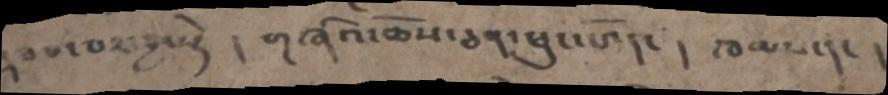རྡབས་བར་བྱ་སྟེ ། གཞིའ་ཆོས་ཅན་ཕུང་པོ་དང། །ཁམས་དང །
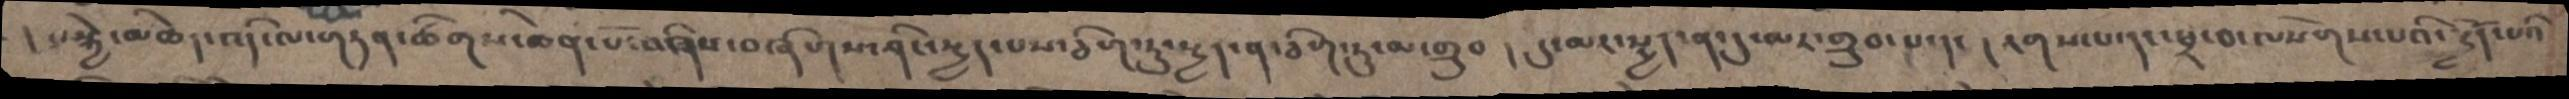། སྐྱེ་མཆེད་འདི་ལ་གཏན་ཚིགས་ཆེན་པོ་བཞིས་བཞིས།ས་ཤིང་སྤྱད་པས་ཅིག་ཏུ་སྤྱད་ན་ཅིག་ཏུ་མ་གྲུབ། དུ་མར་སྤྱད་ན་དུ་མར་གྲུབ་པ་དང །རགས་པ་དང་ཕྲ་བ་ལསོགས་པའི་སྤྱོད་པའི་
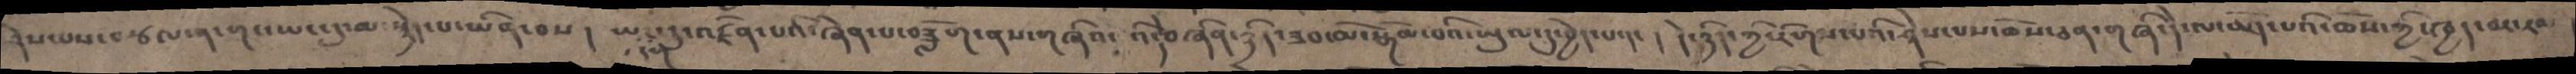ཤེས་པས་བཙལ་ན་གང་ཡང་དུ་མ་སྙེད་པ་ཡིན་བས། ཡང་དག་དུ་འཛིན་པའི་ཞེན་པ་བཟློག་ནས་གཞིའ་འིདེབཞིན་ཉིད་ཟབ་མོ་སྒོམ་པའི་ཡུལ་དུ་བྱེད་པ་དང། དེ་ཉིད་ཀྱི་རིགས་པའི་ཤེས་པས་ཆོས་ཅན་གཞི་དེ་ལ་མོད་པའི་ཆོས་ཀྱི་ཁྱད་བར་རབ
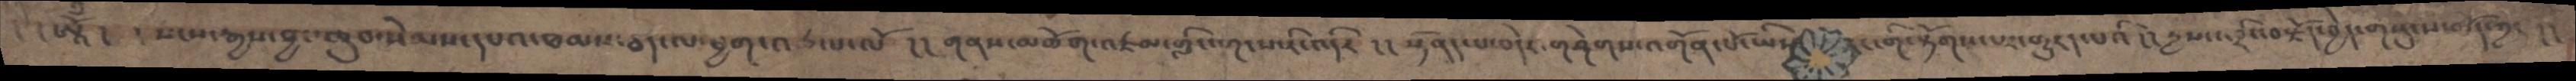། །ཨཱོྃ། །སངས་རྒྱས་བྱང་ཆུབ་སེམས་དཔའ་ཐམས་ཅད་ལ་ཕྱག་འཚལ་ལོ །། གནས་མཆོག་འཛམ་གླིང་གངས་རི་འདིར །། སྟོནད་པ་བདེར་གཤེགས་འགོན་པོ་ཡིས རང་གི་རྟོགས་པར་གྱུརད་པའི།། དྱས་འབྲིང་བརྗོད་བྱེད་གསུངས་མོད་ཀྱང །།
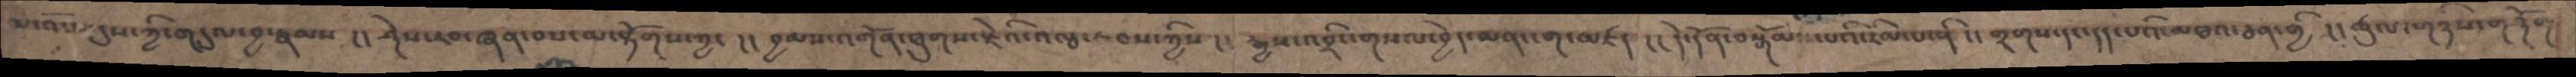མ་འོང་དུས་ཀྱི་གདུལ་བྱ་རྣམས །། ཤེས་རབ་ཞན་པས་མ་རྟོགས་ཀྱང །། བྱམས་འགོན་ཐུགས་རྗེའི་འལྦ་རླབས་ཀྱིས །། རྒྱས་འབྲིང་གསལ་བྱེད་མན་ངག་མཛད །། དེ་དོན་བསྒོམ་པའི་རིམ་པ་ནི །། གྲགས་དང་དད་པའི་མཐའ་ཅན་གྱི །། ཚུལ་གཉིས་གཉོག
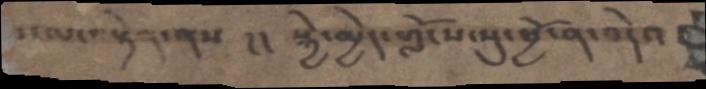་ངལ་བསྟེན་ནས །། སྐྱེ་མྱེད་གློངས་སུ་ཕྱོ་ན་བདེའ
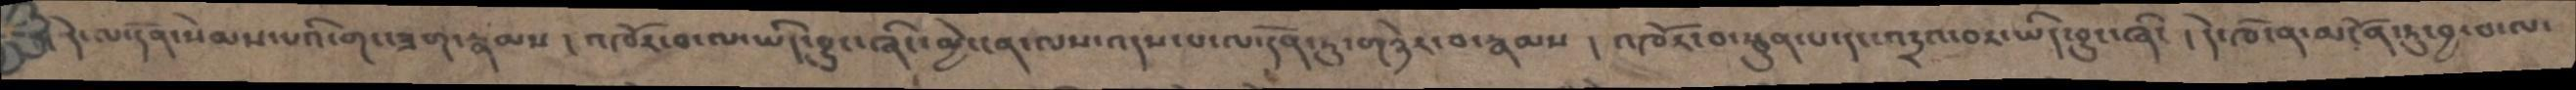དེ་ལ་དོན་སེམས་པའི་གང་ཟག་རྣམས ། འཁོར་བ་ལ་ཡིད་བྱུང་ཞིང་མྱེ་ངན་ལས་འདས་པ་ལ་དོན་ཏུ་གཉེར་བ་རྣམས ། འཁོར་བ་སྦུན་པ་དང་འདྲའ་བར་ཡིད་བྱུང་ཞིང ། དེ་ཁོ་ན་མངོན་ཏུ་བྱ་བ་ལ་
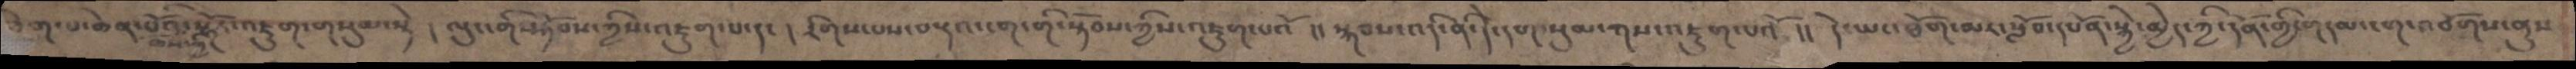ཐེག་པ་ཆེན་པོའི་ཆོས་ཀྱི་སྒོར་འཇུག་གསུམ་སྟེ ། ལུང་གི་སྟོབས་ཀྱིས་འཇུག་པ་དང ། རིགས་པས་བརྡའ་ངག་གི་སྟོབས་ཀྱིས་འཇུག་པའོ །། སྐབས་འདི་ནི་དེ་དག་སུམ་ཀས་འཇུག་པའོ །།དེ་ཡང་ཐོག་མར་སློབ་དཔོན་སྐྱེ་མྱེད་ཀྱི་དོན་གྱི་གདམ་ངག་འབོགས་ནུས
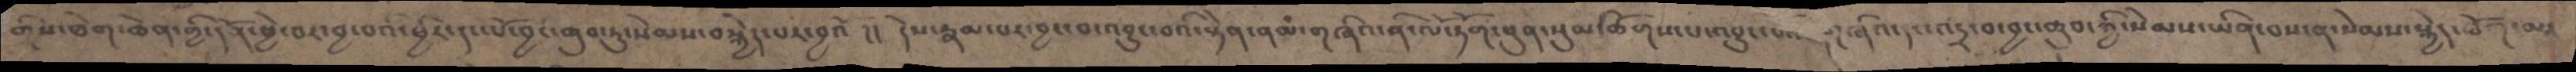གིས་ཐེག་ཆེན་གྱི་དོན་ཕྱེ་བར་བྱ་བའི་ཕྱིར་དང་པོ་བྱང་ཆུབ་ཏུ་སེམས་བསྐྱེད་པར་བྱའོ །། དེས་རྣམ་པར་བྱང་བ་འབྱུང་བའི་རྟེན་ནམ་གཞིའ་ནི་ལོ་ཏོག་ཕུན་སུམ་ཚོགས་པ་འབྱུང་བའི་་གཞིའ་དང་འདྲ་བ་བྱང་ཆུབ་ཀྱི་སེམས་ཡིན་པས་ན་སེམས་སྐྱེད་ཐོག་མར་
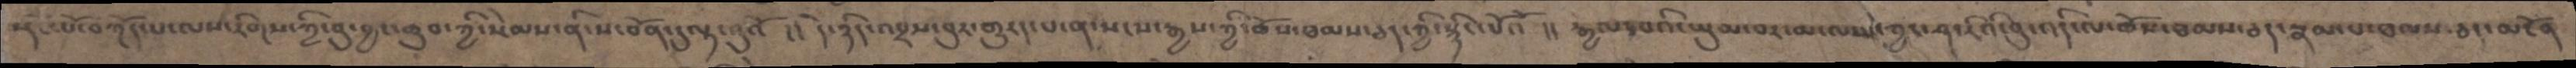སྡོང་པོ་བཀོད་པ་ལས་རིགས་ཀྱི་བུ་བྱང་ཆུབ་ཀྱི་སེམས་ནི་ས་བོན་དུ་ལྟ་བུའོ །། དེ་ཉིད་འབྲས་བུར་གྱུརད་པ་ན་སངས་རྒྱས་ཀྱི་ཆོས་ཐམས་ཅད་ཀྱི་སྙིང་པོའོ །། རྒྱལ་བའི་ཡུམ་བར་མ་ལས་ཀྱང་ཤ་རིའི་བུ་འདི་ལ་ཆོས་ཐམས་ཅད་རྣམ་པ་ཐམས་ཅད་མངོན
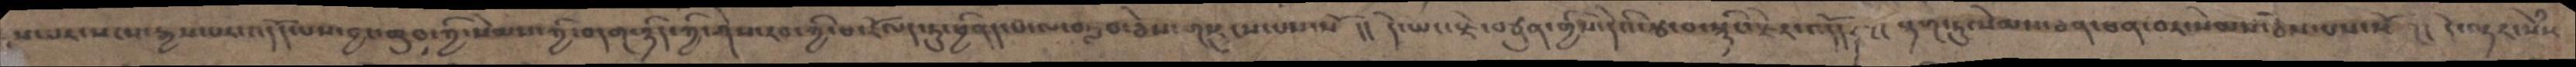ས་པར་སངས་རྒྱས་པར་འདོད་པས་བྱང་ཆུབ་ཀྱི་སེམས་ཀྱི་བདག་ཉིད་ཀྱི་ཤེས་རབ་ཀྱི་ཕ་རོལད་ཏུ་ཕྱིནད་པ་ལ་བརླབ་ཅེས་གསུངས་པས་སོ །། དེ་ཡང་རྗེ་བཙུན་གྱིས་དེའི་རྩ་བ་སྙིང་རྗེར་འདོད། ངང རྟག་ཏུ་སེམས་ཅན་ཕན་བར་སེམས་ཅེས་པས་སོ །། དེ་ལྟར་སེཾས
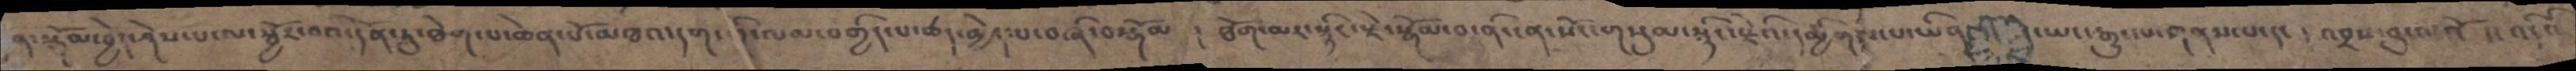ན་སྒོམ་བྱེད་ཤེས་པ་ལ་སྦྱོར་བའི་དོན་ཏུ་ཐེག་པ་ཆེན་པོ་མཐའ་དག་གི་ལམ་བགྱིད་པ་ཚད་མྱེད་པ་བཞི་བསྒོམ ། ཐོག་མར་སྙིང་རྗེ་སྒོམ་བ་ནི་ངན་སོང་གསུམ་སྙིང་རྗེའི་དམྱིགས་པ་ཡིན་ཡང་རྒྱུད་གནས་པ་དང ། འབྲས་བུ་ལའོ །། འདིའི་
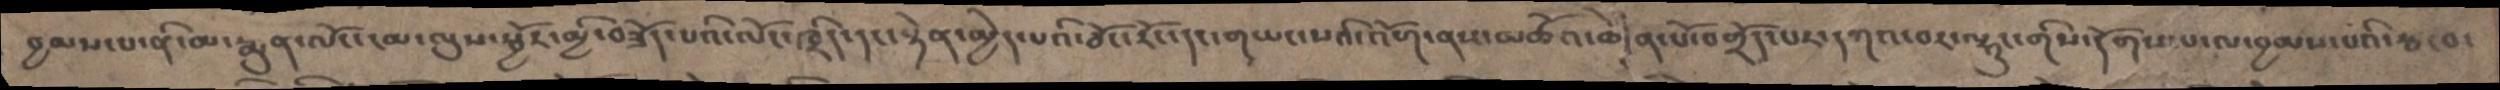བྱམས་པ་ནི་མ་སྨུན་ལོང་ངམ་ལུས་སྦྱོར་མྱི་བཟོད་པའི་ལོང་ཁྲིད་དང་སྟེན་མྱེད་པའི་ཅོང་རོང་དང་གཡང་སའི་འོག་ནས་མཚོའ་ཆེན་པོ་བགྲོད་པར་དགའ་བར་ལྷུང་གིས་དོགས་པ་ལ་བྱམས་པའི་རྩ་བ་
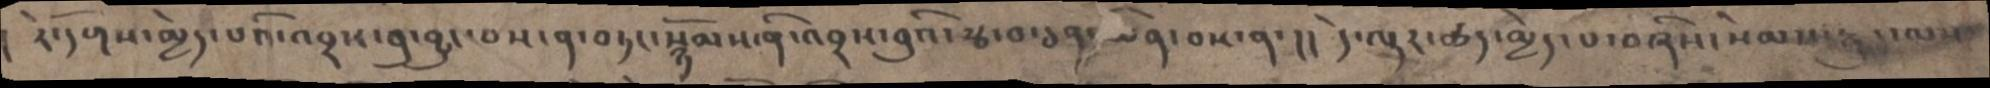། རེ་དོགས་མྱེད་པའི་འབྲས་བུ་བྱུང་བས་ན་བཏང་སྙོམས་ནི་འབྲས་བུའི་རྩ་བ་ཅན་ཡིན་བས་ན་ །། དེ་ལྟར་ཚད་མྱེད་པ་བཞིས་སེམས་རྒྱུད་ལས་
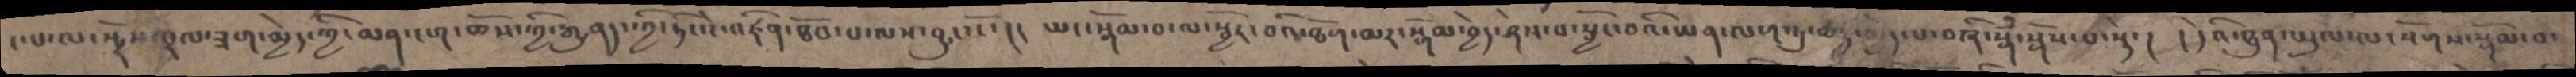ང་པ་ལ་སྤྲོས་བྲལ་ཟག་མྱེད་ཀྱི་མན་ངག་ཆོས་ཀྱི་རྒྱུནད་ཀྱི་ཏིང་ངེ་འཛིན་ཐོབ་པ་ལས་བྱུང་ངོ་།། ཡང་སྒོམ་བ་ལ་སྦྱོར་བའི་ཐོག་མར་སྒོམ་བྱེད་ཤེས་པ་སྦྱོང་བའི་ཡན་ལག་ཏུ་ཚད་མྱེད་པ་བཞི་སྒོཾ་སྒོས་པ་སྟེ། །དེའི་ཐུན་ཡུལ་ལ་སོགས་སྒོམ་བ་
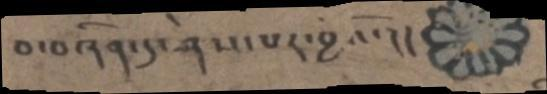བ་བཞིན་དུ་ཤེས་པར་བྱའོ་།།
